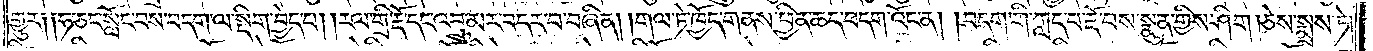གྱུར༑ ༑ཧ་ཅང་སློང་བས་བདག་ལ་སྡིག་བྱེད་པ། །རལ་གྲི་རྡོ་དང་འབྲུ་མར་བདར་བ་བཞིན། །གལ་ཏེ་ཁྱོད་གནས་ཕྱིན་ཆད་བདག་འོང་ན། །བདག་གི་ཀླད་པ་རྡོ་བས་སྣུན་གྱིས་ཤིག །ཅེས་སྨྲས་ཏེ།
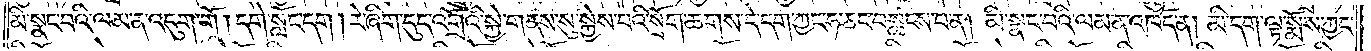མི་སྣང་བའི་ལམ་ན་འདུག་གོ །དགེ་སློང་དག །རེ་ཞིག་དུད་འགྲོའི་སྐྱེ་གནས་སུ་སྐྱེས་པའི་སྲོག་ཆགས་དེ་དག་ཀྱང་ཧ་ཅང་བསླངས་པ་ན། མི་སྣང་བའི་ལམ་ན་འཁོད་ན། མི་དག་ལྟ་སྨོས་ཀྱང་
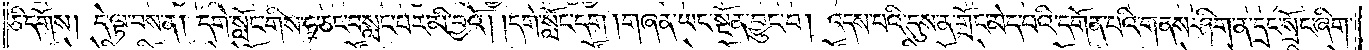ཅི་དགོས། དེ་ལྟ་བས་ན། དགེ་སློང་གིས་ཧ་ཅང་བསླང་པར་མི་བྱའོ། །དགེ་སློང་དག །གཞན་ཡང་སྔོན་བྱུང་བ། འདས་པའི་དུས་ན་གྲོང་མེད་པའི་དགོན་པའི་གནས་ཤིག་ན་དྲང་སྲོང་ཞིག་
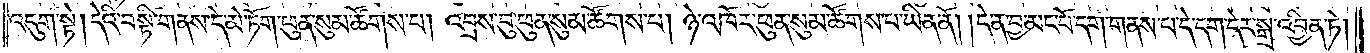འདུག་སྟེ། དེའི་བསྟི་གནས་དེ་མེ་ཏོག་ཕུན་སུམ་ཚོགས་པ། འབྲས་བུ་ཕུན་སུམ་ཚོགས་པ། ཉེ་འཁོར་ཕུན་སུམ་ཚོགས་པ་ཡིན་ནོ། །དེ་ན་བྱ་མང་པོ་དག་གནས་པ་དེ་དག་དེར་སྒྲ་འབྱིན་ཏེ།
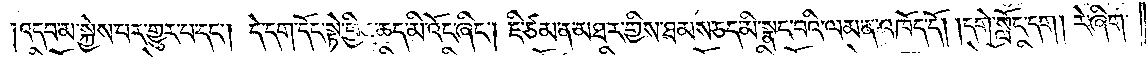འདབ་མ་སྐྱེས་པར་གྱུར་པ་དང༌། དེ་དག་དོང་སྟེ་ཕྱིན་ཆད་མི་འོང་ཞིང༌། ཇི་ཙམ་ན་མཐར་གྱིས་ཐམས་ཅད་མི་སྣང་བའི་ལམ་ན་འཁོད་དོ། །དགེ་སློང་དག། རེ་ཞིག་
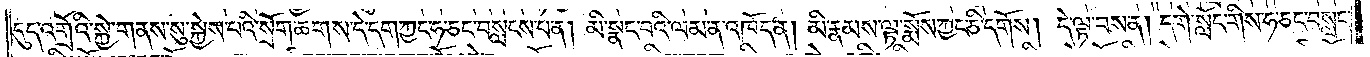དུད་འགྲོའི་སྐྱེ་གནས་སུ་སྐྱེས་པའི་སྲོག་ཆགས་དེ་དག་ཀྱང་ཧ་ཅང་བསླངས་པ་ན། མི་སྣང་བའི་ལམ་ན་འཁོད་ན། མི་རྣམས་ལྟ་སྨོས་ཀྱང་ཅི་དགོས། དེ་ལྟ་བས་ན། དགེ་སློང་གིས་ཧ་ཅང་བསླང་
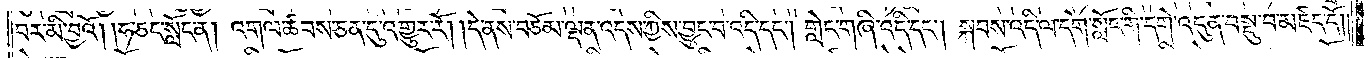བར་མི་བྱའོ། །ཧ་ཅང་སློང་ན། འགལ་ཚབས་ཅན་དུ་འགྱུར་རོ། །དེ་ནས་བཅོམ་ལྡན་འདས་ཀྱིས་བྱུང་བ་འདི་དང༌། གླེང་གཞི་འདི་དང༌། སྐབས་འདི་ལ་དགེ་སློང་གི་དགེ་འདུན་བསྡུ་བ་མཛད་དོ༎
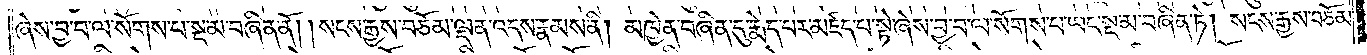ཞེས་བྱ་བ་ལ་སོགས་པ་སྔ་མ་བཞིན་ནོ། །སངས་རྒྱས་བཅོམ་ལྡན་འདས་རྣམས་ནི། མཁྱེན་བཞིན་དུ་རྨེད་པར་མཛད་པ་སྟེ་ཞེས་བྱ་བ་ལ་སོགས་པ་ཡང་སྔ་མ་བཞིན་ཏེ། སངས་རྒྱས་བཅོམ་
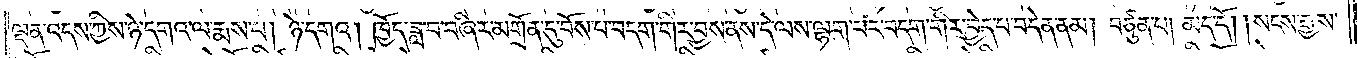ལྡན་འདས་ཀྱིས་ཉེ་དགའ་ལ་རྨས་པ། ཉེ་དགའ། ཁྱོད་ཟླ་བ་བཞིར་མགྲོན་དུ་བོས་པ་བདག་གིར་བྱས་ནས་དེ་ལས་ལྷག་པར་བདག་གིར་བྱེད་པ་བདེན་ནམ། བཙུན་པ། མད་དོ། །སངས་རྒྱས་
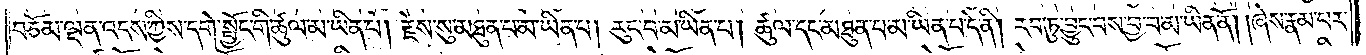བཅོམ་ལྡན་འདས་ཀྱིས་དགེ་སྦྱོང་གི་ཚུལ་མ་ཡིན་པ། རྗེས་སུ་མཐུན་པ་མ་ཡིན་པ། རུང་བ་མ་ཡིན་པ། ཚུལ་དང་མཐུན་པ་མ་ཡིན་པ་དེ་ནི། རབ་ཏུ་བྱུང་བས་བྱ་བ་མ་ཡིན་ནོ། །ཞེས་རྣམ་པར་
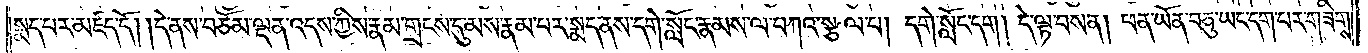སྨད་པར་མཛད་དོ། །དེ་ནས་བཅོམ་ལྡན་འདས་ཀྱིས་རྣམ་གྲངས་དུ་མས་རྣམ་པར་སྨད་ནས་དགེ་སློང་རྣམས་ལ་བཀའ་སྩལ་བ། དགེ་སློང་དག །དེ་ལྟ་བས་ན། ཕན་ཡོན་བཅུ་ཡང་དག་པར་གཟིགས་
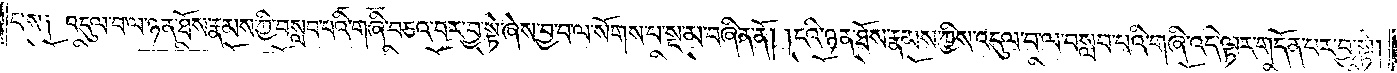པས༑ འདུལ་བ་ལ་ཉན་ཐོས་རྣམས་ཀྱི་བསླབ་པའི་གཞི་བཅའ་བར་བྱ་སྟེ་ཞེས་བྱ་བ་ལ་སོགས་པ་སྔ་མ་བཞིན་ནོ། །ངའི་ཉན་ཐོས་རྣམས་ཀྱིས་འདུལ་བ་ལ་བསླབ་པའི་གཞི་འདི་ལྟར་གདོན་པར་བྱ་སྟེ།
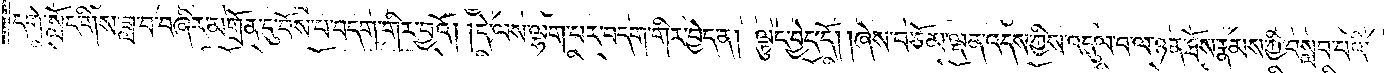དགེ་སློང་གིས་ཟླ་བ་བཞིར་མགྲོན་དུ་བོས་པ་བདག་གིར་བྱའོ། །དེ་ལས་ལྷག་པར་བདག་གིར་བྱེད་ན། ལྟུང་བྱེད་དོ། །ཞེས་བཅོམ་ལྡན་འདས་ཀྱིས་འདུལ་བ་ལ་ཉན་ཐོས་རྣམས་ཀྱི་བསླབ་པའི་
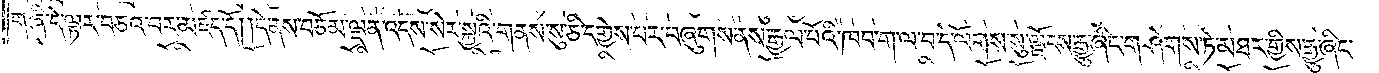གཞི་དེ་ལྟར་བཅའ་བར་མཛད་དོ། །དེ་ནས་བཅོམ་ལྡན་འདས་སེར་སྐྱའི་གནས་སུ་ཅི་དགྱེས་པར་བཞུགས་ནས་རྒྱལ་པོའི་ཁབ་ག་ལ་བ་དེ་ལོགས་སུ་ལྗོངས་རྒྱུ་ཞིང་གཤེགས་ཏེ་མཐར་གྱིས་རྒྱུ་ཞིང་
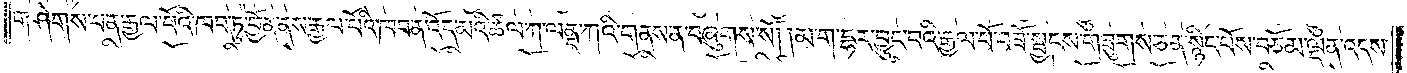གཤེགས་པ་ན་རྒྱལ་པོའི་ཁབ་ཏུ་བྱོན་ནས་རྒྱལ་པོའི་ཁབ་ན་འོད་མའི་ཚལ་ཀ་ལནྡ་ཀའི་གནས་ན་བཞུགས་སོ། །མ་ག་དྷར་བྱུང་བའི་རྒྱལ་པོ་བཟོ་སྦྱངས་གཟུགས་ཅན་སྙིང་པོས་བཅོམ་ལྡན་འདས་
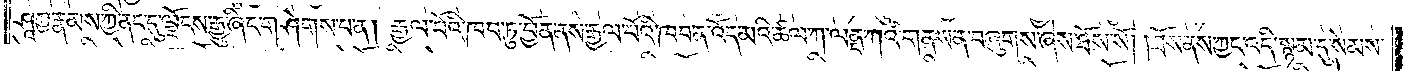ཤཱཀྱ་རྣམས་ཀྱི་ནང་དུ་ལྗོངས་རྒྱུ་ཞིང་གཤེགས་པ་ན། རྒྱལ་པོའི་ཁབ་ཏུ་བྱོན་ནས་རྒྱལ་པོའི་ཁབ་ན་འོད་མའི་ཚལ་ཀ་ལནྡ་ཀའི་གནས་ན་བཞུགས་ཞེས་ཐོས་སོ། །ཐོས་ནས་ཀྱང་འདི་སྙམ་དུ་སེམས་
